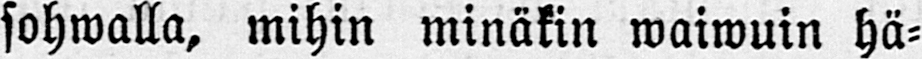sohwalla, mihin minäkin waiwuin hä-
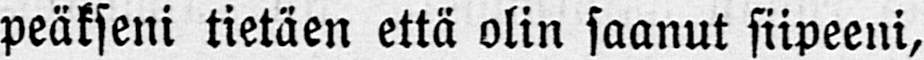peäkseni tietäen että olin saanut siipeeni,
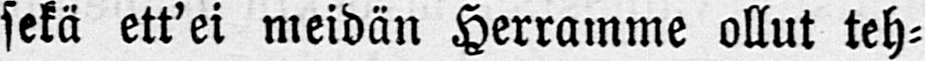sekä ett'ei meidän Herramme ollut teh-
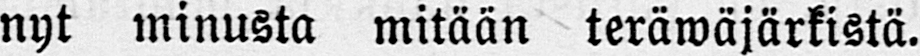nyt minusta mitään teräwäjärkistä.
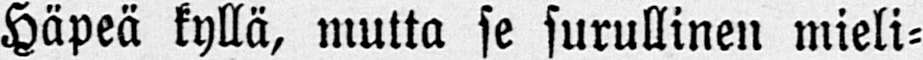Häpeä kyllä, mutta se surullinen mieli-
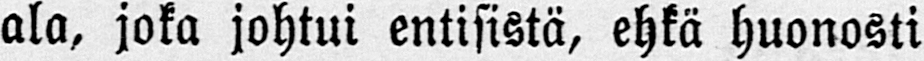ala, joka johtui entisistä, ehkä huonosti
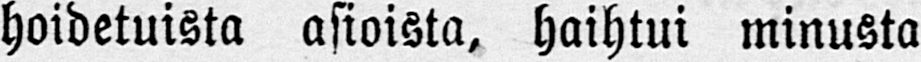hoidetuista asioista, haihtui minusta
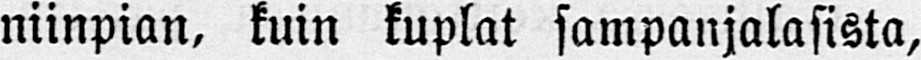niinpian, kuin kuplat sampanjalasista,
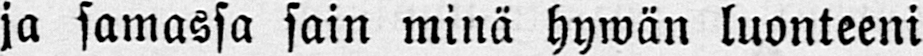ja samassa sain minä hywän luonteeni
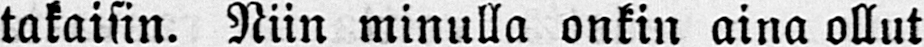takaisin. Niin minulla onkin aina ollut
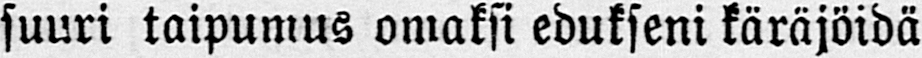suuri taipumus omaksi edukseni käräjöidä
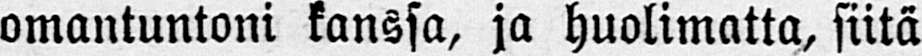omantuntoni kanssa, ja huolimatta, siitä
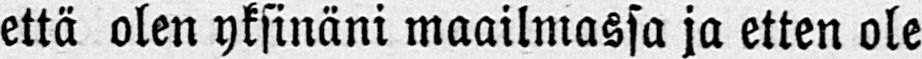että olen yksinäni maailmassa ja etten ole
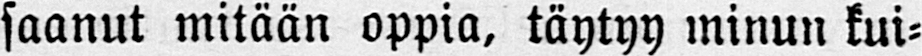saanut mitään oppia, täytyy minun kui-
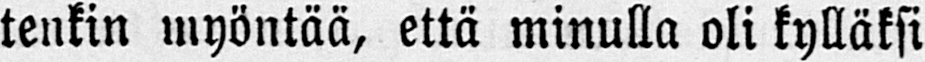tenkin myöntää, että minulla oli kylläksi
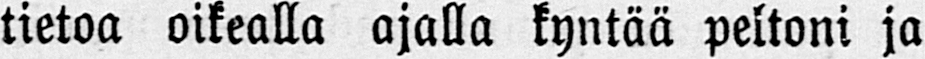tietoa oikealla ajalla kyntää peltoni ja
